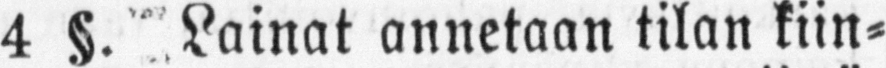4 §. Lainat annetaan tilan kiin-
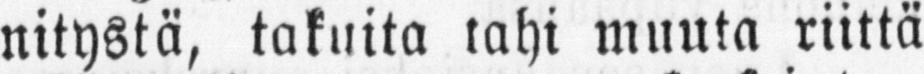nitystä, takuita tahi muuta riittä
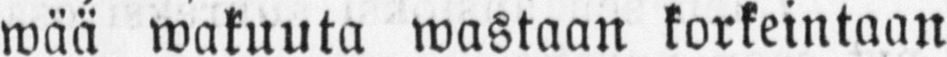wää wakuuta wastaan korkeintaan
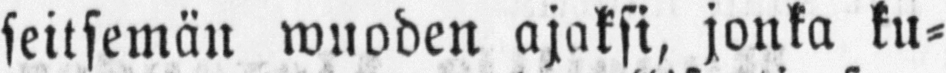seitsemän wuoden ajaksi, jonka ku-
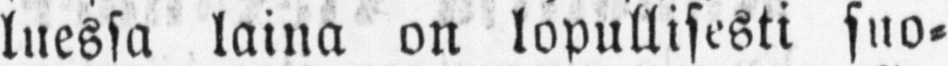luessa laina on lopullisesti suo-
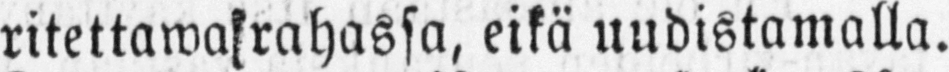ritettawa rahassa, eikä uudistamalla.
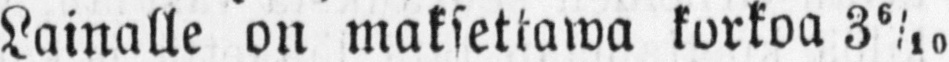Lainalle on maksettawa korkoa 36/10
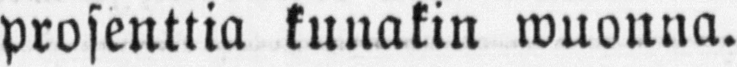prosenttia kunakin wuonna.
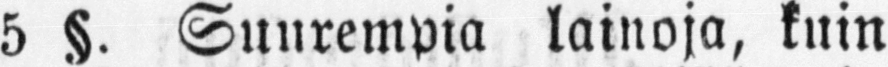5 §. Suurempia lainoja, kuin
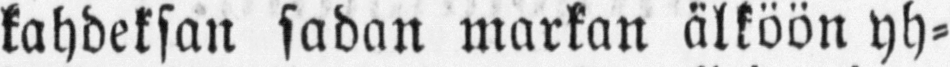kahdeksan sadan markan älköön yh-
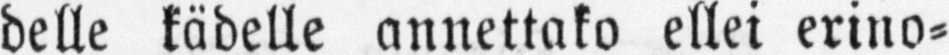delle kädelle annettako ellei erino-
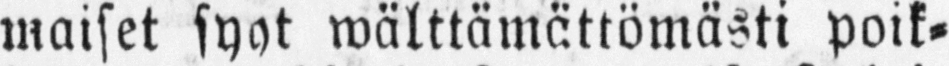maiset syyt wälttämättömästi poik-
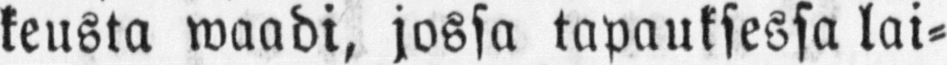keusta waadi, jossa tapauksessa lai-
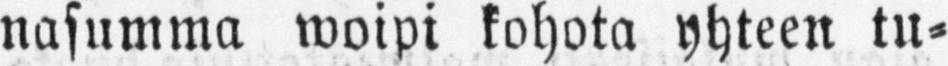nasumma woipi kohota yhteen tu-
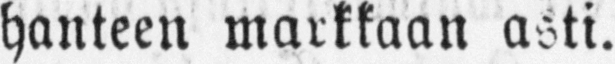hanteen markkaan asti.
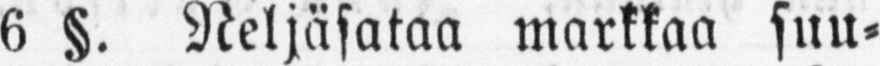6 §. Neljäsataa markkaa suu-
